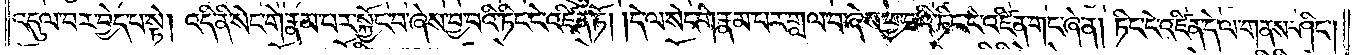འདུལ་བར་བྱེད་པ་སྟེ། འདི་ནི་སེང་གེ་རྣམ་པར་སྐྱོང་བ་ཞེས་བྱ་བའི་ཏིང་ངེ་འཛིན་ཏོ། །དེ་ལ་སེང་གེ་རྣམ་པར་གླལ་བ་ཞེས་བྱ་བའི་ཏིང་ངེ་འཛིན་གང་ཞེ་ན། ཏིང་ངེ་འཛིན་དེ་ལ་གནས་ཤིང༌།
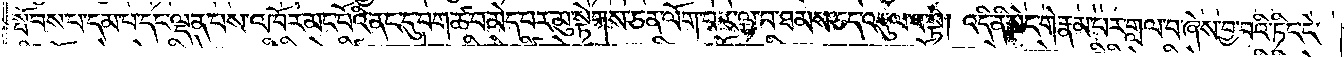སྤོབས་པ་དམ་པ་དང་ལྡན་པས་འཁོར་མང་པོའི་ནང་དུ་བག་ཚ་བ་མེད་པར་མུ་སྟེགས་ཅན་ལོག་པར་ལྡན་པ་ཐམས་ཅད་འདུལ་བ་སྟེ། འདི་ནི་སེང་གེ་རྣམ་པར་གླལ་བ་ཞེས་བྱ་བའི་ཏིང་ངེ་
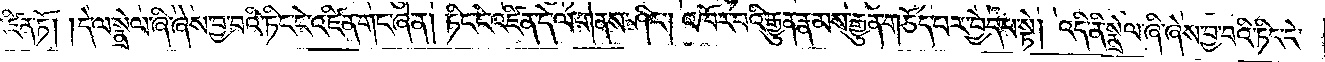འཛིན་ཏོ། །དེ་ལ་སྣྲེལ་ཞི་ཞེས་བྱ་བའི་ཏིང་ངེ་འཛིན་གང་ཞེ་ན། ཏིང་ངེ་འཛིན་དེ་ལ་གནས་ཤིང༌། འཁོར་བའི་རྒྱུན་རྣམས་རྒྱུན་གཅོད་པར་བྱེད་པ་སྟེ། འདི་ནི་སྣྲེལ་ཞི་ཞེས་བྱ་བའི་ཏིང་ངེ་
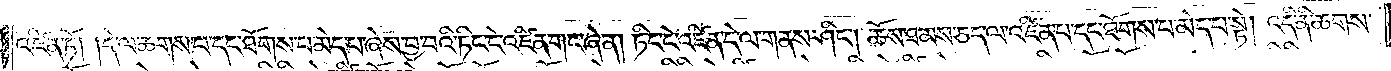འཛིན་ཏོ། །དེ་ལ་ཆགས་པ་དང་ཐོགས་པ་མེད་པ་ཞེས་བྱ་བའི་ཏིང་ངེ་འཛིན་གང་ཞེ་ན། ཏིང་ངེ་འཛིན་དེ་ལ་གནས་ཤིང༌། ཆོས་ཐམས་ཅད་ལ་འཛིན་པ་དང་ཐོགས་པ་མེད་པ་སྟེ། འདི་ནི་ཆགས་
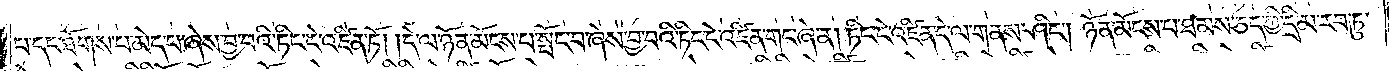པ་དང་ཐོགས་པ་མེད་པ་ཞེས་བྱ་བའི་ཏིང་ངེ་འཛིན་ཏོ། །དེ་ལ་ཉོན་མོངས་པ་སྤོང་བ་ཞེས་བྱ་བའི་ཏིང་ངེ་འཛིན་གང་ཞེ་ན། ཏིང་ངེ་འཛིན་དེ་ལ་གནས་ཤིང༌། ཉོན་མོངས་པ་ཐམས་ཅད་ཀྱི་དྲི་མ་རབ་ཏུ་
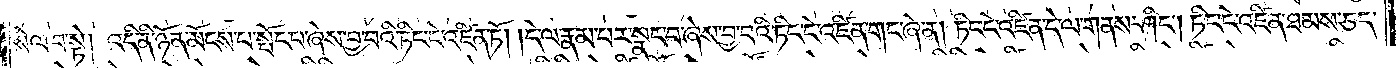སེལ་བ་སྟེ། འདི་ནི་ཉོན་མོངས་པ་སྤོང་བ་ཞེས་བྱ་བའི་ཏིང་ངེ་འཛིན་ཏོ། །དེ་ལ་རྣམ་པར་སྣང་བ་ཞེས་བྱ་བའི་ཏིང་ངེ་འཛིན་གང་ཞེ་ན། ཏིང་ངེ་འཛིན་དེ་ལ་གནས་ཤིང༌། ཏིང་ངེ་འཛིན་ཐམས་ཅད་
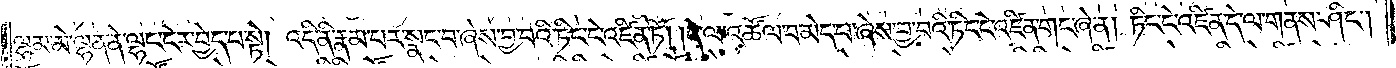ལྷམ་མེ་ལྷན་ནེ་ལྷང་ངེར་བྱེད་པ་སྟེ། འདི་ནི་རྣམ་པར་སྣང་བ་ཞེས་བྱ་བའི་ཏིང་ངེ་འཛིན་ཏོ། །དེ་ལ་འཚོལ་བ་མེད་པ་ཞེས་བྱ་བའི་ཏིང་ངེ་འཛིན་གང་ཞེ་ན། ཏིང་ངེ་འཛིན་དེ་ལ་གནས་ཤིང༌།
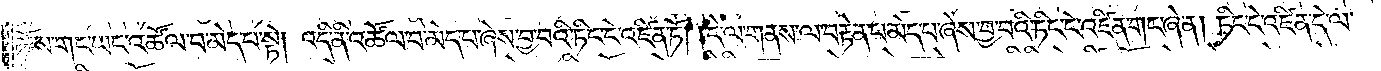ཆོས་གང་ཡང་འཚོལ་བ་མེད་པ་སྟེ། འདི་ནི་འཚོལ་བ་མེད་པ་ཞེས་བྱ་བའི་ཏིང་ངེ་འཛིན་ཏོ། །དེ་ལ་གནས་ལ་བརྟེན་པ་མེད་པ་ཞེས་བྱ་བའི་ཏིང་ངེ་འཛིན་གང་ཞེ་ན། ཏིང་ངེ་འཛིན་དེ་ལ་
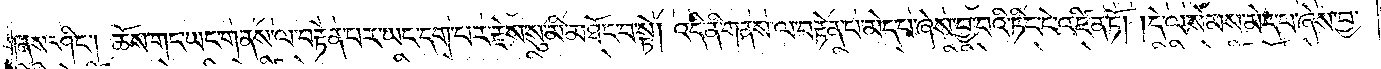གནས་ཤིང༌། ཆོས་གང་ཡང་གནས་ལ་བརྟེན་པར་ཡང་དག་པར་རྗེས་སུ་མི་མཐོང་བ་སྟེ། འདི་ནི་གནས་ལ་བརྟེན་པ་མེད་པ་ཞེས་བྱ་བའི་ཏིང་ངེ་འཛིན་ཏོ། །དེ་ལ་སེམས་མེད་པ་ཞེས་བྱ་
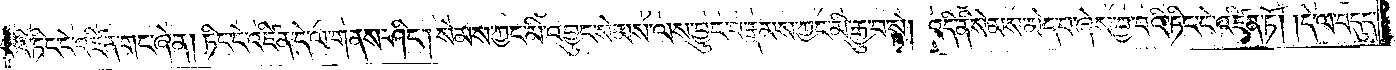བའི་ཏིང་ངེ་འཛིན་གང་ཞེ་ན། ཏིང་ངེ་འཛིན་དེ་ལ་གནས་ཤིང༌། སེམས་ཀྱང་མི་འབྱུང་སེམས་ལས་བྱུང་བ་རྣམས་ཀྱང་མི་རྒྱུ་བ་སྟེ། འདི་ནི་སེམས་མེད་པ་ཞེས་བྱ་བའི་ཏིང་ངེ་འཛིན་ཏོ། །དེ་ལ་བདུད་
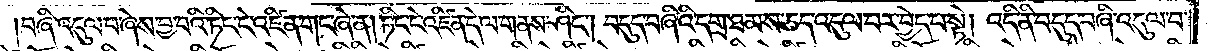བཞི་འདུལ་བ་ཞེས་བྱ་བའི་ཏིང་ངེ་འཛིན་གང་ཞེ་ན། ཏིང་ངེ་འཛིན་དེ་ལ་གནས་ཤིང༌། བདུད་བཞིའི་དགྲ་ཐམས་ཅད་འདུལ་བར་བྱེད་པ་སྟེ། འདི་ནི་བདུད་བཞི་འདུལ་བ་
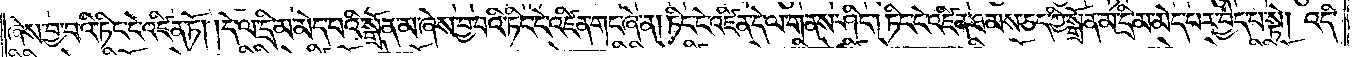ཞེས་བྱ་བའི་ཏིང་ངེ་འཛིན་ཏོ། །དེ་ལ་དྲི་མ་མེད་པའི་སྒྲོན་མ་ཞེས་བྱ་བའི་ཏིང་ངེ་འཛིན་གང་ཞེ་ན། ཏིང་ངེ་འཛིན་དེ་ལ་གནས་ཤིང༌། ཏིང་ངེ་འཛིན་ཐམས་ཅད་ཀྱི་སྒྲོན་མ་དྲི་མ་མེད་པར་བྱེད་པ་སྟེ། འདི་
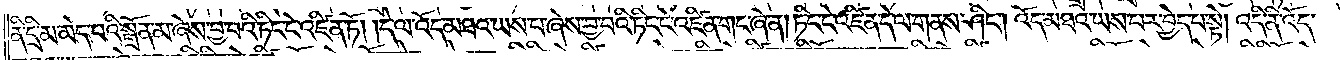ནི་དྲི་མ་མེད་པའི་སྒྲོན་མ་ཞེས་བྱ་བའི་ཏིང་ངེ་འཛིན་ཏོ། །དེ་ལ་འོད་མཐའ་ཡས་པ་ཞེས་བྱ་བའི་ཏིང་ངེ་འཛིན་གང་ཞེ་ན། ཏིང་ངེ་འཛིན་དེ་ལ་གནས་ཤིང༌། འོད་མཐའ་ཡས་པར་བྱེད་པ་སྟེ། འདི་ནི་འོད་
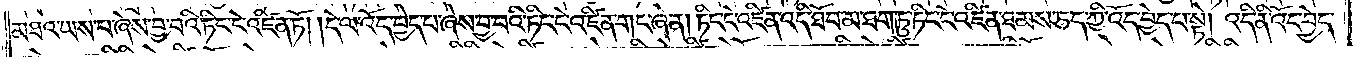མཐའ་ཡས་པ་ཞེས་བྱ་བའི་ཏིང་ངེ་འཛིན་ཏོ། །དེ་ལ་འོད་བྱེད་པ་ཞེས་བྱ་བའི་ཏིང་ངེ་འཛིན་གང་ཞེ་ན། ཏིང་ངེ་འཛིན་འདི་ཐོབ་མ་ཐག་ཏུ་ཏིང་ངེ་འཛིན་ཐམས་ཅད་ཀྱི་འོད་བྱེད་པ་སྟེ། འདི་ནི་འོད་བྱེད་
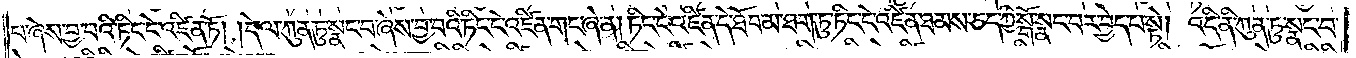པ་ཞེས་བྱ་བའི་ཏིང་ངེ་འཛིན་ཏོ། །དེ་ལ་ཀུན་ཏུ་སྣང་བ་ཞེས་བྱ་བའི་ཏིང་ངེ་འཛིན་གང་ཞེ་ན། ཏིང་ངེ་འཛིན་དེ་ཐོབ་མ་ཐག་ཏུ་ཏིང་ངེ་འཛིན་ཐམས་ཅད་ཀྱི་སྒོ་སྣང་བར་བྱེད་པ་སྟེ། འདི་ནི་ཀུན་ཏུ་སྣང་བ་
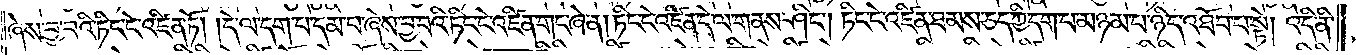ཞེས་བྱ་བའི་ཏིང་ངེ་འཛིན་ཏོ། །དེ་ལ་དག་པ་དམ་པ་ཞེས་བྱ་བའི་ཏིང་ངེ་འཛིན་གང་ཞེ་ན། ཏིང་ངེ་འཛིན་དེ་ལ་གནས་ཤིང༌། ཏིང་ངེ་འཛིན་ཐམས་ཅད་ཀྱི་དག་པ་མཉམ་པ་ཉིད་འཐོབ་པ་སྟེ། འདི་ནི་
